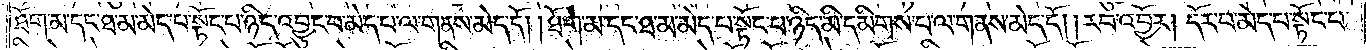ཐོག་མ་དང་ཐ་མ་མེད་པ་སྟོང་པ་ཉིད་འབྱུང་བ་མེད་པ་ལ་གནས་མེད་དོ། །ཐོག་མ་དང་ཐ་མ་མེད་པ་སྟོང་པ་ཉིད་མི་དམིགས་པ་ལ་གནས་མེད་དོ། །རབ་འབྱོར། དོར་བ་མེད་པ་སྟོང་པ་
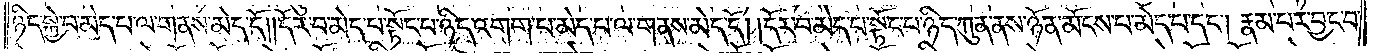ཉིད་སྐྱེ་བ་མེད་པ་ལ་གནས་མེད་དོ། །དོར་བ་མེད་པ་སྟོང་པ་ཉིད་འགག་པ་མེད་པ་ལ་གནས་མེད་དོ། །དོར་བ་མེད་པ་སྟོང་པ་ཉིད་ཀུན་ནས་ཉོན་མོངས་པ་མེད་པ་དང༌། རྣམ་པར་བྱང་བ་
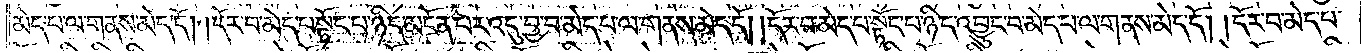མེད་པ་ལ་གནས་མེད་དོ། །དོར་བ་མེད་པ་སྟོང་པ་ཉིད་མངོན་པར་འདུ་བྱ་བ་མེད་པ་ལ་གནས་མེད་དོ། །དོར་བ་མེད་པ་སྟོང་པ་ཉིད་འབྱུང་པ་མེད་པ་ལ་གནས་མེད་དོ། །དོར་བ་མེད་པ་
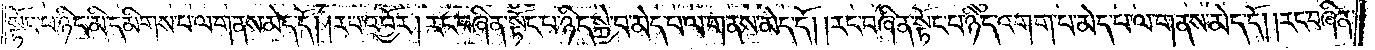སྟོང་པ་ཉིད་མི་དམིགས་པ་ལ་གནས་མེད་དོ། །རབ་འབྱོར། རང་བཞིན་སྟོང་པ་ཉིད་སྐྱེ་བ་མེད་པ་ལ་གནས་མེད་དོ། །རང་བཞིན་སྟོང་པ་ཉིད་འགག་པ་མེད་པ་ལ་གནས་མེད་དོ། །རང་བཞིན་
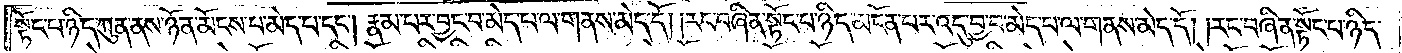སྟོང་པ་ཉིད་ཀུན་ནས་ཉོན་མོངས་པ་མེད་པ་དང༌། རྣམ་པར་བྱང་བ་མེད་པ་ལ་གནས་མེད་དོ། །རང་བཞིན་སྟོང་པ་ཉིད་མངོན་པར་འདུ་བྱ་བ་མེད་པ་ལ་གནས་མེད་དོ། །རང་བཞིན་སྟོང་པ་ཉིད་
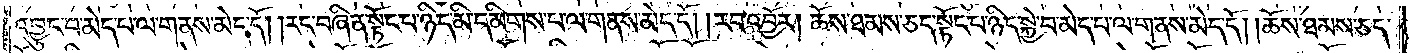འབྱུང་བ་མེད་པ་ལ་གནས་མེད་དོ། །རང་བཞིན་སྟོང་པ་ཉིད་མི་དམིགས་པ་ལ་གནས་མེད་དོ། །རབ་འབྱོར། ཆོས་ཐམས་ཅད་སྟོང་པ་ཉིད་སྐྱེ་བ་མེད་པ་ལ་གནས་མེད་དོ། །ཆོས་ཐམས་ཅད་
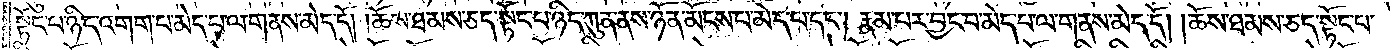སྟོང་པ་ཉིད་འགག་པ་མེད་པ་ལ་གནས་མེད་དོ། །ཆོས་ཐམས་ཅད་སྟོང་པ་ཉིད་ཀུན་ནས་ཉོན་མོངས་པ་མེད་པ་དང༌། རྣམ་པར་བྱང་བ་མེད་པ་ལ་གནས་མེད་དོ། །ཆོས་ཐམས་ཅད་སྟོང་པ་
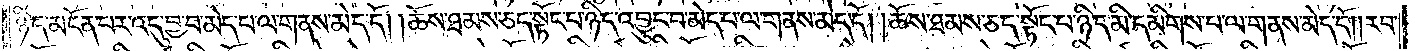ཉིད་མངོན་པར་འདུ་བྱ་བ་མེད་པ་ལ་གནས་མེད་དོ། །ཆོས་ཐམས་ཅད་སྟོང་པ་ཉིད་འབྱུང་བ་མེད་པ་ལ་གནས་མེད་དོ། །ཆོས་ཐམས་ཅད་སྟོང་པ་ཉིད་མི་དམིགས་པ་ལ་གནས་མེད་དོ། །རབ་
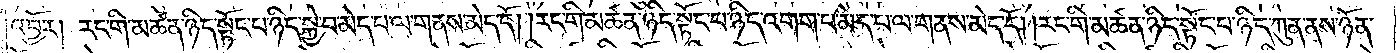འབྱོར། རང་གི་མཚན་ཉིད་སྟོང་པ་ཉིད་སྐྱེ་བ་མེད་པ་ལ་གནས་མེད་དོ། །རང་གི་མཚན་ཉིད་སྟོང་པ་ཉིད་འགག་པ་མེད་པ་ལ་གནས་མེད་དོ། །རང་གི་མཚན་ཉིད་སྟོང་པ་ཉིད་ཀུན་ནས་ཉོན་
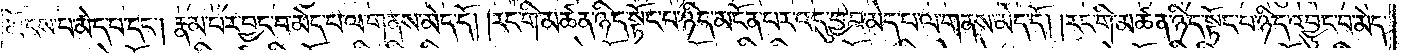མོངས་པ་མེད་པ་དང༌། རྣམ་པར་བྱང་བ་མེད་པ་ལ་གནས་མེད་དོ། །རང་གི་མཚན་ཉིད་སྟོང་པ་ཉིད་མངོན་པར་འདུ་བྱ་བ་མེད་པ་ལ་གནས་མེད་དོ། །རང་གི་མཚན་ཉིད་སྟོང་པ་ཉིད་འབྱུང་བ་མེད་
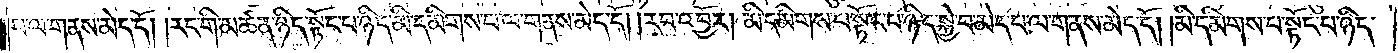པ་ལ་གནས་མེད་དོ། །རང་གི་མཚན་ཉིད་སྟོང་པ་ཉིད་མི་དམིགས་པ་ལ་གནས་མེད་དོ། །རབ་འབྱོར། མི་དམིགས་པ་སྟོང་པ་ཉིད་སྐྱེ་བ་མེད་པ་ལ་གནས་མེད་དོ། །མི་དམིགས་པ་སྟོང་པ་ཉིད་
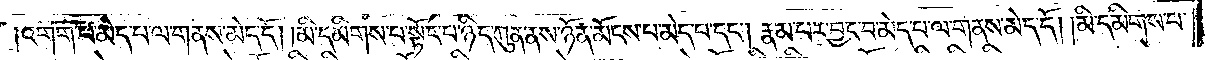འགག་པ་མེད་པ་ལ་གནས་མེད་དོ། །མི་དམིགས་པ་སྟོང་པ་ཉིད་ཀུན་ནས་ཉོན་མོངས་པ་མེད་པ་དང༌། རྣམ་པར་བྱང་བ་མེད་པ་ལ་གནས་མེད་དོ། །མི་དམིགས་པ་
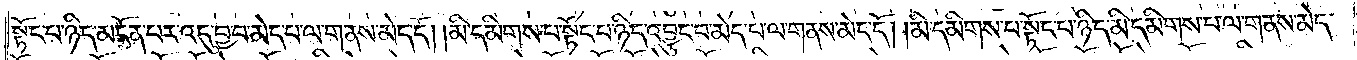སྟོང་པ་ཉིད་མངོན་པར་འདུ་བྱ་བ་མེད་པ་ལ་གནས་མེད་དོ། །མི་དམིགས་པ་སྟོང་པ་ཉིད་འབྱུང་བ་མེད་པ་ལ་གནས་མེད་དོ། །མི་དམིགས་པ་སྟོང་པ་ཉིད་མི་དམིགས་པ་ལ་གནས་མེད་
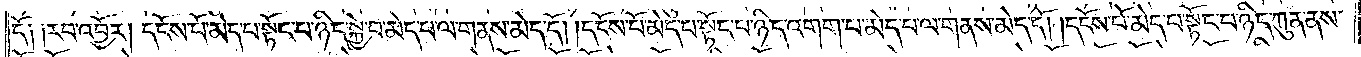དོ། །རབ་འབྱོར། དངོས་པོ་མེད་པ་སྟོང་པ་ཉིད་སྐྱེ་བ་མེད་པ་ལ་གནས་མེད་དོ། །དངོས་པོ་མེད་པ་སྟོང་པ་ཉིད་འགག་པ་མེད་པ་ལ་གནས་མེད་དོ། །དངོས་པོ་མེད་པ་སྟོང་པ་ཉིད་ཀུན་ནས་
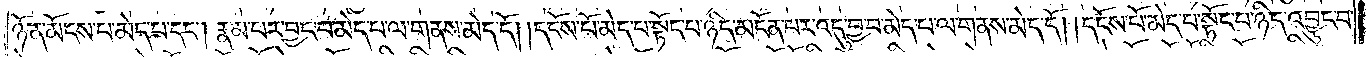ཉོན་མོངས་པ་མེད་པ་དང༌། རྣམ་པར་བྱང་བ་མེད་པ་ལ་གནས་མེད་དོ། །དངོས་པོ་མེད་པ་སྟོང་པ་ཉིད་མངོན་པར་འདུ་བྱ་བ་མེད་པ་ལ་གནས་མེད་དོ། །དངོས་པོ་མེད་པ་སྟོང་པ་ཉིད་འབྱུང་བ་
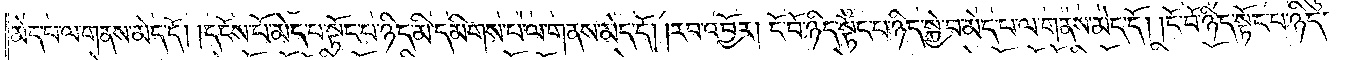མེད་པ་ལ་གནས་མེད་དོ། །དངོས་པོ་མེད་པ་སྟོང་པ་ཉིད་མི་དམིགས་པ་ལ་གནས་མེད་དོ། །རབ་འབྱོར། ངོ་བོ་ཉིད་སྟོང་པ་ཉིད་སྐྱེ་བ་མེད་པ་ལ་གནས་མེད་དོ། །ངོ་བོ་ཉིད་སྟོང་པ་ཉིད་
